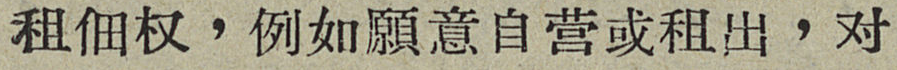租佃权，例如願意自营或租出，对
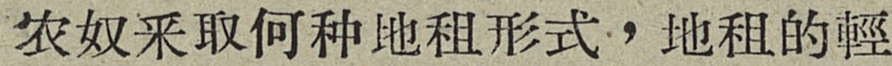农奴采取何种地租形式，地租的輕
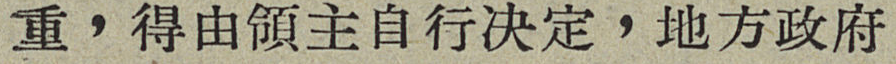重，得由領主自行决定，地方政府
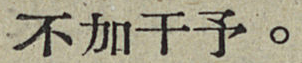不加干予。
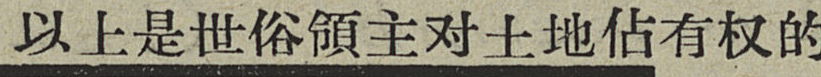以上是世俗領主对土地佔有权的
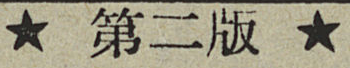★ 第二版 ★
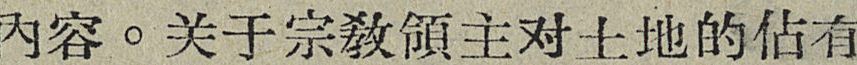内容。关于宗敎領主对土地的佔有
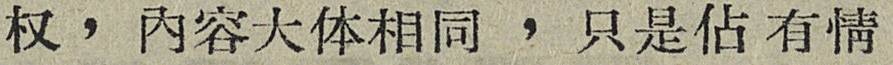权，内容大体相同，只是佔有有情
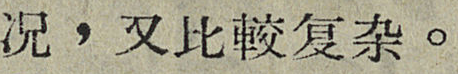况，又比較复杂。
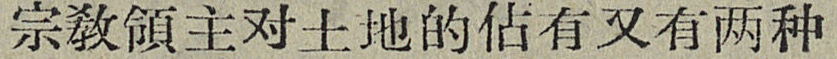宗敎領主对土地的佔有又有两种
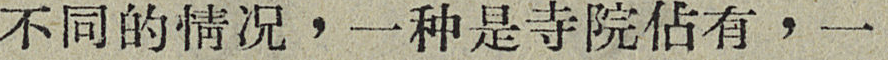不同的情况，一种是寺院佔有，一
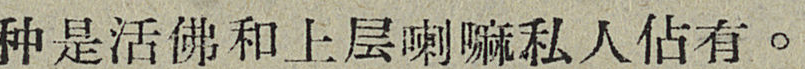种是活佛和上层喇嘛私人佔有。
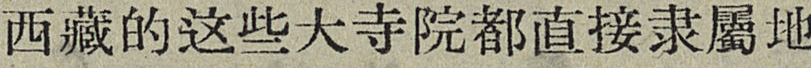西藏的这些大寺院都直接屬地
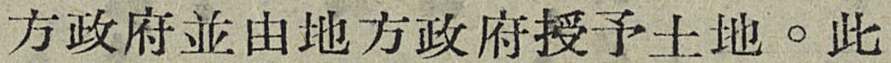方政府並由地方政府授予土地。此
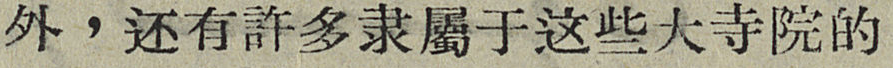外，还有許多隶屬于这些大寺院的
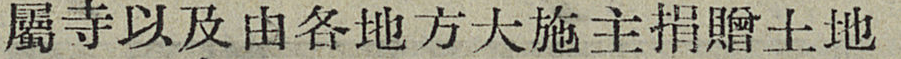屬寺以及由各地方大施主捐贈土地
